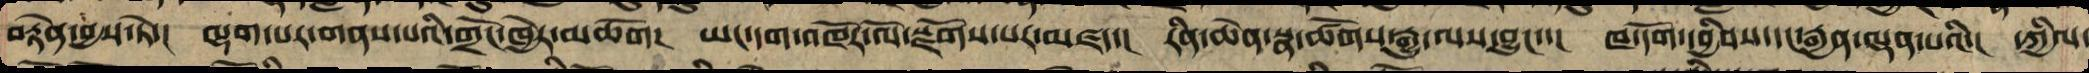བརྟེན་བྱས་ཏེ་། ལྷག་པར་གནས་པའི་གྲོང་ཁྱེར་མཆོག། ཡང་དག་འཁོར་ལོ་སྫོགས་པར་མཛོད་། རིན་ཆེན་སྣ་ཚོགས་རྒྱུ་ལས་བྱུང་་། ཁ་དོག་དབྱིབས་དང་རྒྱན་ལྡན་པའི་། དཀྱིལ་
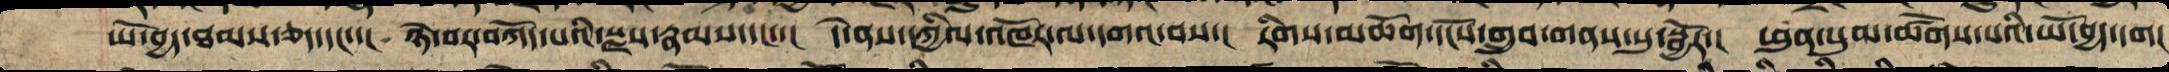ཡོ་བྱད་ཐམས་ཅད་དང་་། ཉེ་བར་བཀོད་པའི་སྫས་རྣམས་དང་་། དེ་ནས་དཀྱིལ་འཁོར་ལ་དགའ་བས་། རིགས་མཆོག་དངོས་གྲུབ་གནས་སུ་སྦྱོར་། ཕུན་སུམ་ཚོགས་པའི་ཡོ་བྱད་དག།
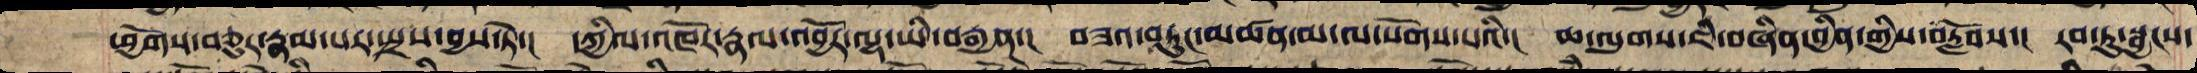ཕྱོགས་བཅུར་རྣམ་པར་སྤྲས་བྱས་ཏེ་། དཀྱིལ་འཁོར་རྣལ་འབྱོར་ལྷ་ཡི་རྒྱན་། བཟའ་བཏུང་མཚན་མ་ལ་སོགས་པའི་། ཆ་ལུགས་ཇི་བཞིན་བྱིན་གྱིས་་རློབས་། རབ་ཏུ་སྦྱངས་
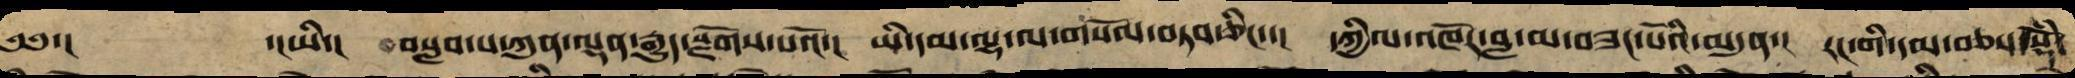༄༅་།        ་།ཡི་། བསླབ་པ་ཀུན་ལྡན་རྒྱུད་སྫོགས་པའོ་། ཡི་དམ་ལྷ་ལ་གསོལ་བཏབ་ཅིང་་། དཀྱིལ་འཁོར་བླ་མ་བཟང་པོའི་མདུན་། རང་གི་དམ་བཅས་སྡོཾ་
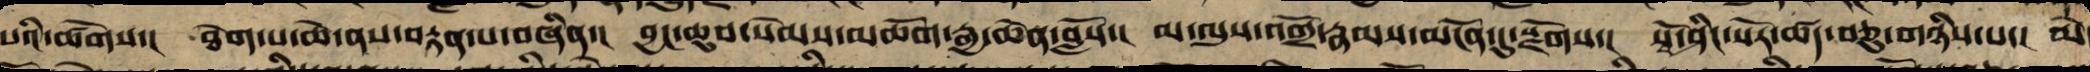པའི་ཚོགས་། ཐེག་པ་ཆེ་ནས་བརྟན་པ་བཞིན་། བྱང་ཆུབ་སེམས་མཆོག་རྒྱ་ཆེན་བློས་། མ་ལུས་འགྲོ་རྣམས་མངོན་དུ་སྫོགས་། སྭོ་ཤིང་སོར་ཚད་བཅུ་གཉིས་པ་། མེ
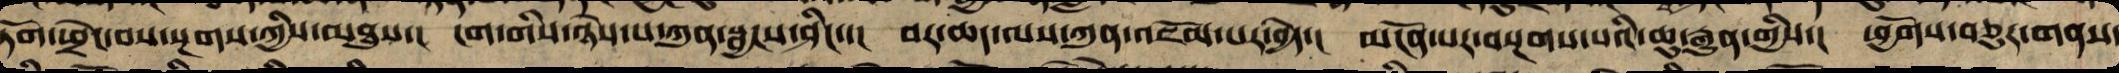ཏོག་ཕྲེང་བས་སྔགས་ཀྱིས་མཐུས་། ངག་གིས་ཉེས་པ་ཀུན་སྦྱངས་ཤིང་་། བར་ཆད་ལས་ཀུན་འཇོམ་པར་བྱེད་། མངོན་པར་བསྔགས་པའི་ཆུ་རྒྱུན་གྱིས། ཕྱོགས་བཅུར་གནས་
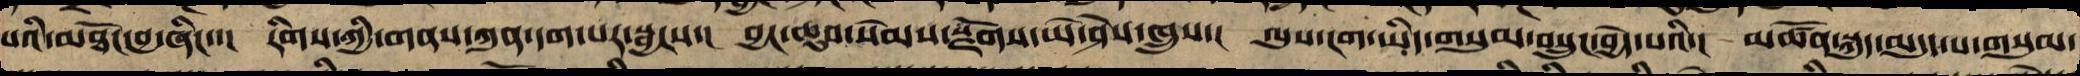ལ་འཐོང་བྱ་ཞིང་་། རིགས་ཀྱི་གནས་ཀུན་དག་པར་སྦྱངས་། བྱང་ཆུབ་སེམས་སྫོགས་ཡེ་ཤེས་ཁྲུས་། ལུས་ངག་ཡིད་གསུམ་བསྲུང་བྱེད་པའི་། མཚོན་སྐུད་མདུད་པ་གསུམ་
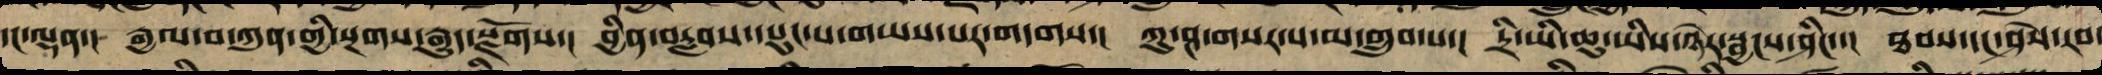དང་ལྡན་། རྒྱལ་བ་ཀུན་གྱི་སྔགས་རྒྱུད་སྫོགས་། བྱིན་བརླབས་དཔུང་པ་གཡས་པར་གདགས་། ཀུ་ཤ་གསར་པ་མ་གྲུབ་པ་། དྲི་ཡི་ཆུ་ཡིས་ཉེར་སྦྱངས་ཤིང་་། ཐབས་དང་ཤེས་རབ་
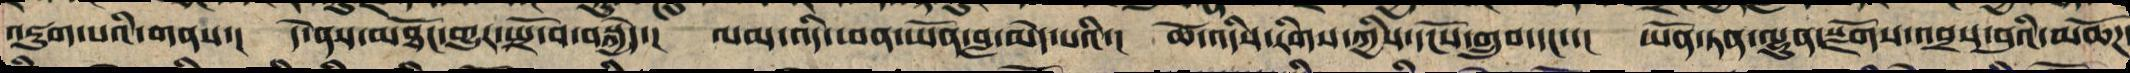འཇུག་པའི་གནས་། དེ་ནས་མཐོང་གྱུར་སྤྲོ་བ་བསྐྱེད་། ལམ་འདི་ཕན་ཡོན་བླ་མེད་པའི་། ཚེ་འདིས་རིགས་ཀྱི་དངོས་གྲུབ་དང་་། ཡོན་ཏན་ལྷུན་སྫོགས་འབྲས་བུའི་མཆོཌ
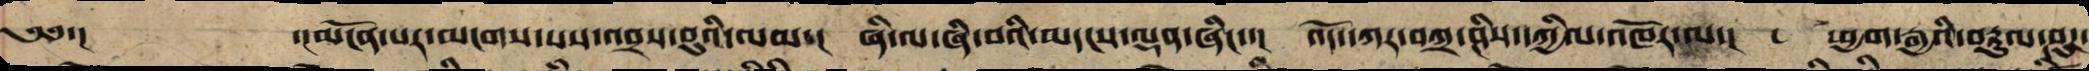༄༅་། ་།མངོན་པར་མངགས་པས་འབྲས་བུའི་ལམ་། ཞི་ལ་ཞི་བའི་མདངས་ལྡན་ཞིང་་། འོད་དཀར་བཀྲ་ཤིས་དཀྱིལ་འཁོར་ལ་། ཕྱག་རྒྱའི་བརྟུལ་ཤུཌ་
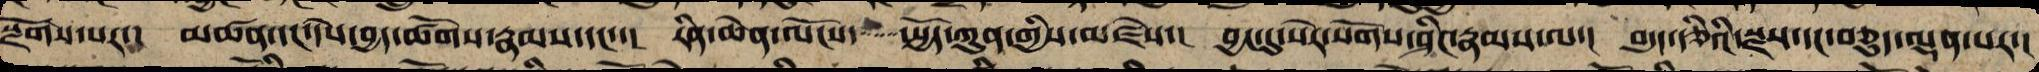སྫོགས་པར་། མཚན་དང་དཔེ་བྱད་ཚོགས་རྣམས་དང་་། རིན་ཆེན་ལོངས་སྤྱོད་ཀུན་གྱིས་མཛེས་། བྱང་དུ་སེར་སོགས་ཤིང་རྣམས་ལ་། བདུད་རྩིའི་སྫས་དང་བཅུད་ལྡན་པར་།
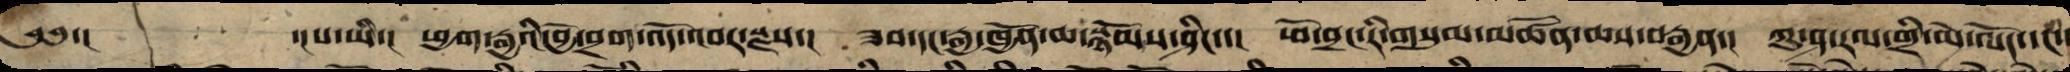༄༅་། ་།པ་ཡི་། ཕྱག་རྒྱའི་བྱེ་བྲག་འོད་འབར་སྫས་། ཟབས་དང་རྒྱ་ཁྱོན་ཆ་སྙོམས་ཤིང་་། ཕོ་བྲང་རི་གསུམ་མཚོན་ཆས་བརྒྱན་། ཀུ་ཤ་རལ་གྲི་མེ་ལོང་དང་།
